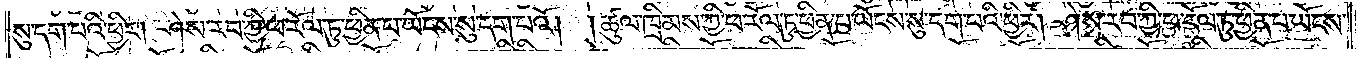སུ་དག་པའི་ཕྱིར། ཤེས་རབ་ཀྱི་ཕ་རོལ་ཏུ་ཕྱིན་པ་ཡོངས་སུ་དག་པའོ། །ཚུལ་ཁྲིམས་ཀྱི་ཕ་རོལ་ཏུ་ཕྱིན་པ་ཡོངས་སུ་དག་པའི་ཕྱིར། ཤེས་རབ་ཀྱི་ཕ་རོལ་ཏུ་ཕྱིན་པ་ཡོངས་
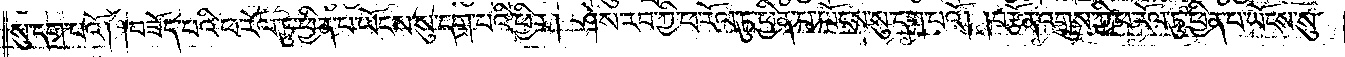སུ་དག་པའོ། །བཟོད་པའི་ཕ་རོལ་ཏུ་ཕྱིན་པ་ཡོངས་སུ་དག་པའི་ཕྱིར། ཤེས་རབ་ཀྱི་ཕ་རོལ་ཏུ་ཕྱིན་པ་ཡོངས་སུ་དག་པའོ། །བརྩོན་འགྲུས་ཀྱི་ཕ་རོལ་ཏུ་ཕྱིན་པ་ཡོངས་སུ་
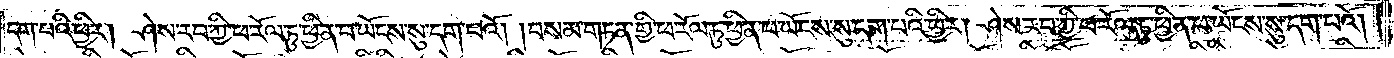དག་པའི་ཕྱིར། ཤེས་རབ་ཀྱི་ཕ་རོལ་ཏུ་ཕྱིན་པ་ཡོངས་སུ་དག་པའོ། །བསམ་གཏན་གྱི་ཕ་རོལ་ཏུ་ཕྱིན་པ་ཡོངས་སུ་དག་པའི་ཕྱིར། ཤེས་རབ་ཀྱི་ཕ་རོལ་ཏུ་ཕྱིན་པ་ཡོངས་སུ་དག་པའོ། །
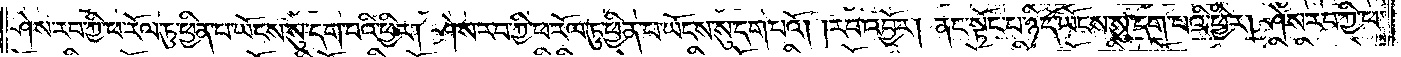ཤེས་རབ་ཀྱི་ཕ་རོལ་ཏུ་ཕྱིན་པ་ཡོངས་སུ་དག་པའི་ཕྱིར། ཤེས་རབ་ཀྱི་ཕ་རོལ་ཏུ་ཕྱིན་པ་ཡོངས་སུ་དག་པའོ། །རབ་འབྱོར། ནང་སྟོང་པ་ཉིད་ཡོངས་སུ་དག་པའི་ཕྱིར། ཤེས་རབ་ཀྱི་ཕ་
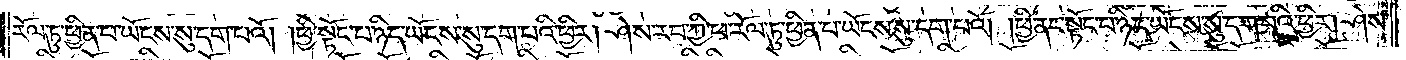རོལ་ཏུ་ཕྱིན་པ་ཡོངས་སུ་དག་པའོ། །ཕྱི་སྟོང་པ་ཉིད་ཡོངས་སུ་དག་པའི་ཕྱིར། ཤེས་རབ་ཀྱི་ཕ་རོལ་ཏུ་ཕྱིན་པ་ཡོངས་སུ་དག་པའོ། །ཕྱི་ནང་སྟོང་པ་ཉིད་ཡོངས་སུ་དག་པའི་ཕྱིར། ཤེས་
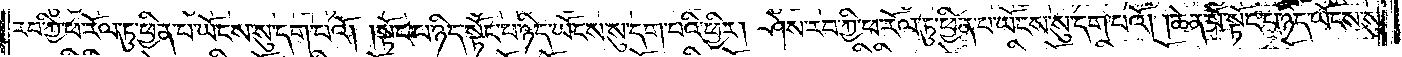རབ་ཀྱི་ཕ་རོལ་ཏུ་ཕྱིན་པ་ཡོངས་སུ་དག་པའོ། །སྟོང་པ་ཉིད་སྟོང་པ་ཉིད་ཡོངས་སུ་དག་པའི་ཕྱིར། ཤེས་རབ་ཀྱི་ཕ་རོལ་ཏུ་ཕྱིན་པ་ཡོངས་སུ་དག་པའོ། །ཆེན་པོ་སྟོང་པ་ཉིད་ཡོངས་སུ་
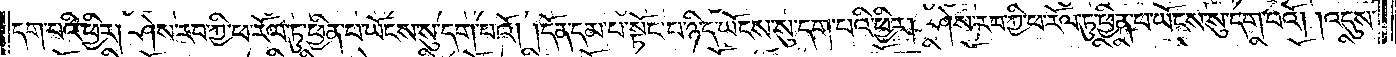དག་པའི་ཕྱིར། ཤེས་རབ་ཀྱི་ཕ་རོལ་ཏུ་ཕྱིན་པ་ཡོངས་སུ་དག་པའོ། །དོན་དམ་པ་སྟོང་པ་ཉིད་ཡོངས་སུ་དག་པའི་ཕྱིར། ཤེས་རབ་ཀྱི་ཕ་རོལ་ཏུ་ཕྱིན་པ་ཡོངས་སུ་དག་པའོ། །འདུས་
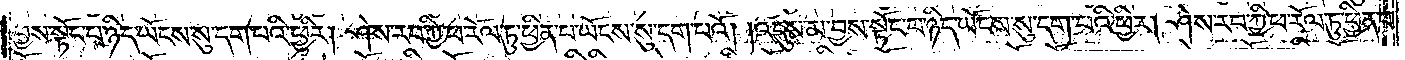བྱས་སྟོང་པ་ཉིད་ཡོངས་སུ་དག་པའི་ཕྱིར། ཤེས་རབ་ཀྱི་ཕ་རོལ་ཏུ་ཕྱིན་པ་ཡོངས་སུ་དག་པའོ། །འདུས་མ་བྱས་སྟོང་པ་ཉིད་ཡོངས་སུ་དག་པའི་ཕྱིར། ཤེས་རབ་ཀྱི་ཕ་རོལ་ཏུ་ཕྱིན་པ་
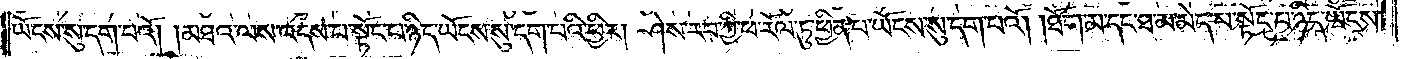ཡོངས་སུ་དག་པའོ། །མཐའ་ལས་འདས་པ་སྟོང་པ་ཉིད་ཡོངས་སུ་དག་པའི་ཕྱིར། ཤེས་རབ་ཀྱི་ཕ་རོལ་ཏུ་ཕྱིན་པ་ཡོངས་སུ་དག་པའོ། །ཐོག་མ་དང་ཐ་མ་མེད་པ་སྟོང་པ་ཉིད་ཡོངས་
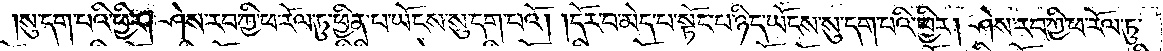སུ་དག་པའི་ཕྱིར། ཤེས་རབ་ཀྱི་ཕ་རོལ་ཏུ་ཕྱིན་པ་ཡོངས་སུ་དག་པའོ། །དོར་བ་མེད་པ་སྟོང་པ་ཉིད་ཡོངས་སུ་དག་པའི་ཕྱིར། ཤེས་རབ་ཀྱི་ཕ་རོལ་ཏུ་
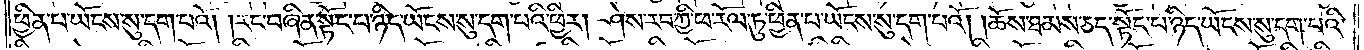ཕྱིན་པ་ཡོངས་སུ་དག་པའོ། །རང་བཞིན་སྟོང་པ་ཉིད་ཡོངས་སུ་དག་པའི་ཕྱིར། ཤེས་རབ་ཀྱི་ཕ་རོལ་ཏུ་ཕྱིན་པ་ཡོངས་སུ་དག་པའོ། །ཆོས་ཐམས་ཅད་སྟོང་པ་ཉིད་ཡོངས་སུ་དག་པའི་
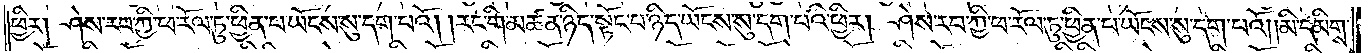ཕྱིར། ཤེས་རབ་ཀྱི་ཕ་རོལ་ཏུ་ཕྱིན་པ་ཡོངས་སུ་དག་པའོ། །རང་གི་མཚན་ཉིད་སྟོང་པ་ཉིད་ཡོངས་སུ་དག་པའི་ཕྱིར། ཤེས་རབ་ཀྱི་ཕ་རོལ་ཏུ་ཕྱིན་པ་ཡོངས་སུ་དག་པའོ། །མི་དམིགས་
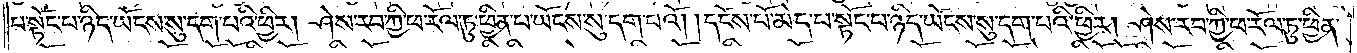པ་སྟོང་པ་ཉིད་ཡོངས་སུ་དག་པའི་ཕྱིར། ཤེས་རབ་ཀྱི་ཕ་རོལ་ཏུ་ཕྱིན་པ་ཡོངས་སུ་དག་པའོ། །དངོས་པོ་མེད་པ་སྟོང་པ་ཉིད་ཡོངས་སུ་དག་པའི་ཕྱིར། ཤེས་རབ་ཀྱི་ཕ་རོལ་ཏུ་ཕྱིན་
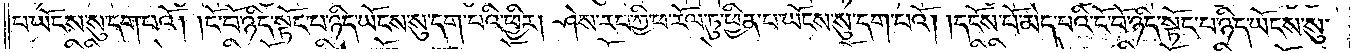པ་ཡོངས་སུ་དག་པའོ། །ངོ་བོ་ཉིད་སྟོང་པ་ཉིད་ཡོངས་སུ་དག་པའི་ཕྱིར། ཤེས་རབ་ཀྱི་ཕ་རོལ་ཏུ་ཕྱིན་པ་ཡོངས་སུ་དག་པའོ། །དངོས་པོ་མེད་པའི་ངོ་བོ་ཉིད་སྟོང་པ་ཉིད་ཡོངས་སུ་
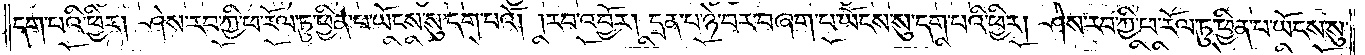དག་པའི་ཕྱིར། ཤེས་རབ་ཀྱི་ཕ་རོལ་ཏུ་ཕྱིན་པ་ཡོངས་སུ་དག་པའོ། །རབ་འབྱོར། དྲན་པ་ཉེ་བར་བཞག་པ་ཡོངས་སུ་དག་པའི་ཕྱིར། ཤེས་རབ་ཀྱི་ཕ་རོལ་ཏུ་ཕྱིན་པ་ཡོངས་སུ་
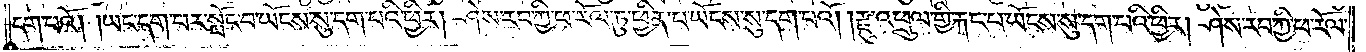དག་པའོ། །ཡང་དག་པར་སྤོང་བ་ཡོངས་སུ་དག་པའི་ཕྱིར། ཤེས་རབ་ཀྱི་ཕ་རོལ་ཏུ་ཕྱིན་པ་ཡོངས་སུ་དག་པའོ། །རྫུ་འཕྲུལ་གྱི་རྐང་པ་ཡོངས་སུ་དག་པའི་ཕྱིར། ཤེས་རབ་ཀྱི་ཕ་རོལ་
